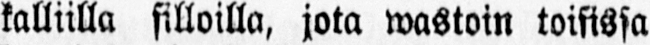kalliilla silloilla, jota mastoin toisissa
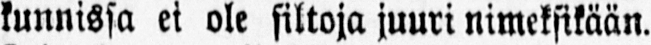kunnissa ei ole siltoja juuri nimeksikään.
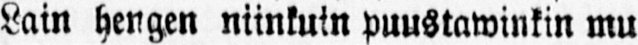Lain hengen niinkuin puustawinkin mu-
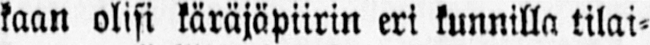kaan olisi käräjäpiirin eri kunnilla tilai-
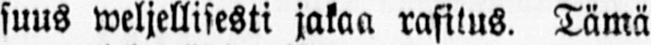suus weljellisesti jakaa rasitus. Tämä
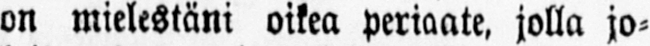on mielestäni oikea periaate, jolla jo-
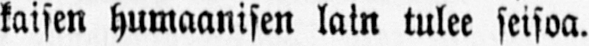kaisen humaanisen lain tulee seisoa.
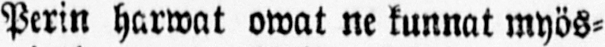Perin harwat owat ne kunnat myös-
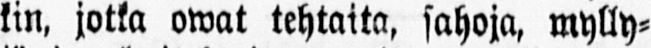kin, jotka omat tehtaita, sahoja, mylly-
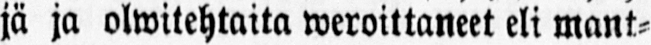jä ja olwitehtaita weroittaneet eli mant-
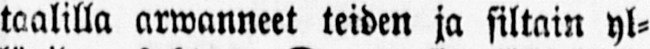taalilla arwanneet teiden ja siltain yl-
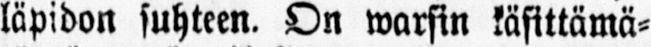läpidon suhteen. On warsin käsittämä-
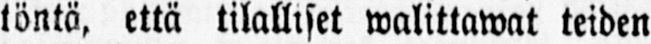töntä, että tilalliset walittawat teiden
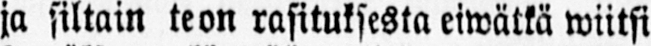ja siltain te on rasituksesta eiwätkä wiitsi
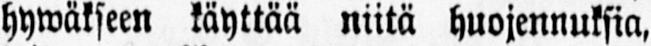hywäkseen käyttää niitä huojennuksia,
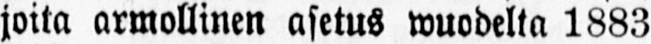joita armollinen asetus wuodelta 1883
